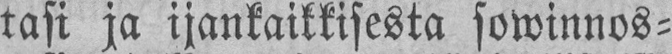tasi ja ijankaikkisesta sowinnos-
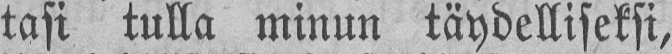tasi tulla minun täydelliseksi,
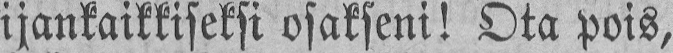ijankaikkiseksi osakseni! Ota pois,
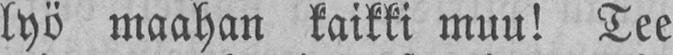lyö maahan kaikki muu! Tee
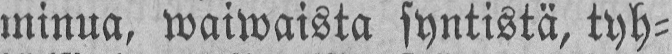minua, waiwaista syntistä, tyh-
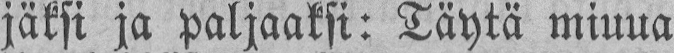jäksi ja paljaaksi: Täytä miuua
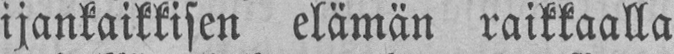ijankaikkisen elämän raikkaalla
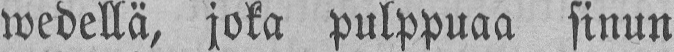wedellä, joka pulppuaa sinun
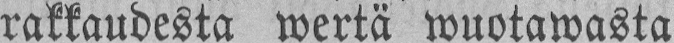rakkaudesta wertä wuotawasta
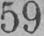59
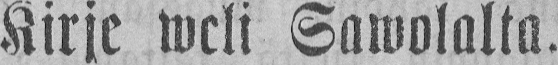Kirje weli Sawolalta.
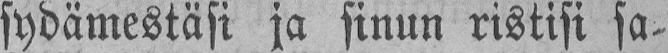sydämestäsi ja sinun ristisi sa-
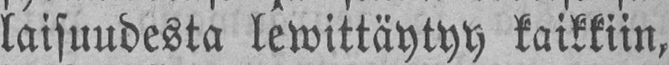laisuudesta lewittäytyy kaikkiin,
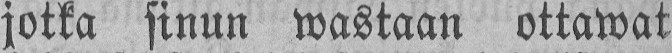jotka sinun wastaan ottawat
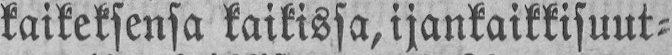kaikeksensa kaikissa, ijankaikkisuut-
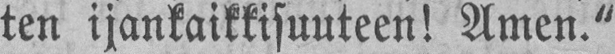ten iankaikkisuuteen! Amen."
